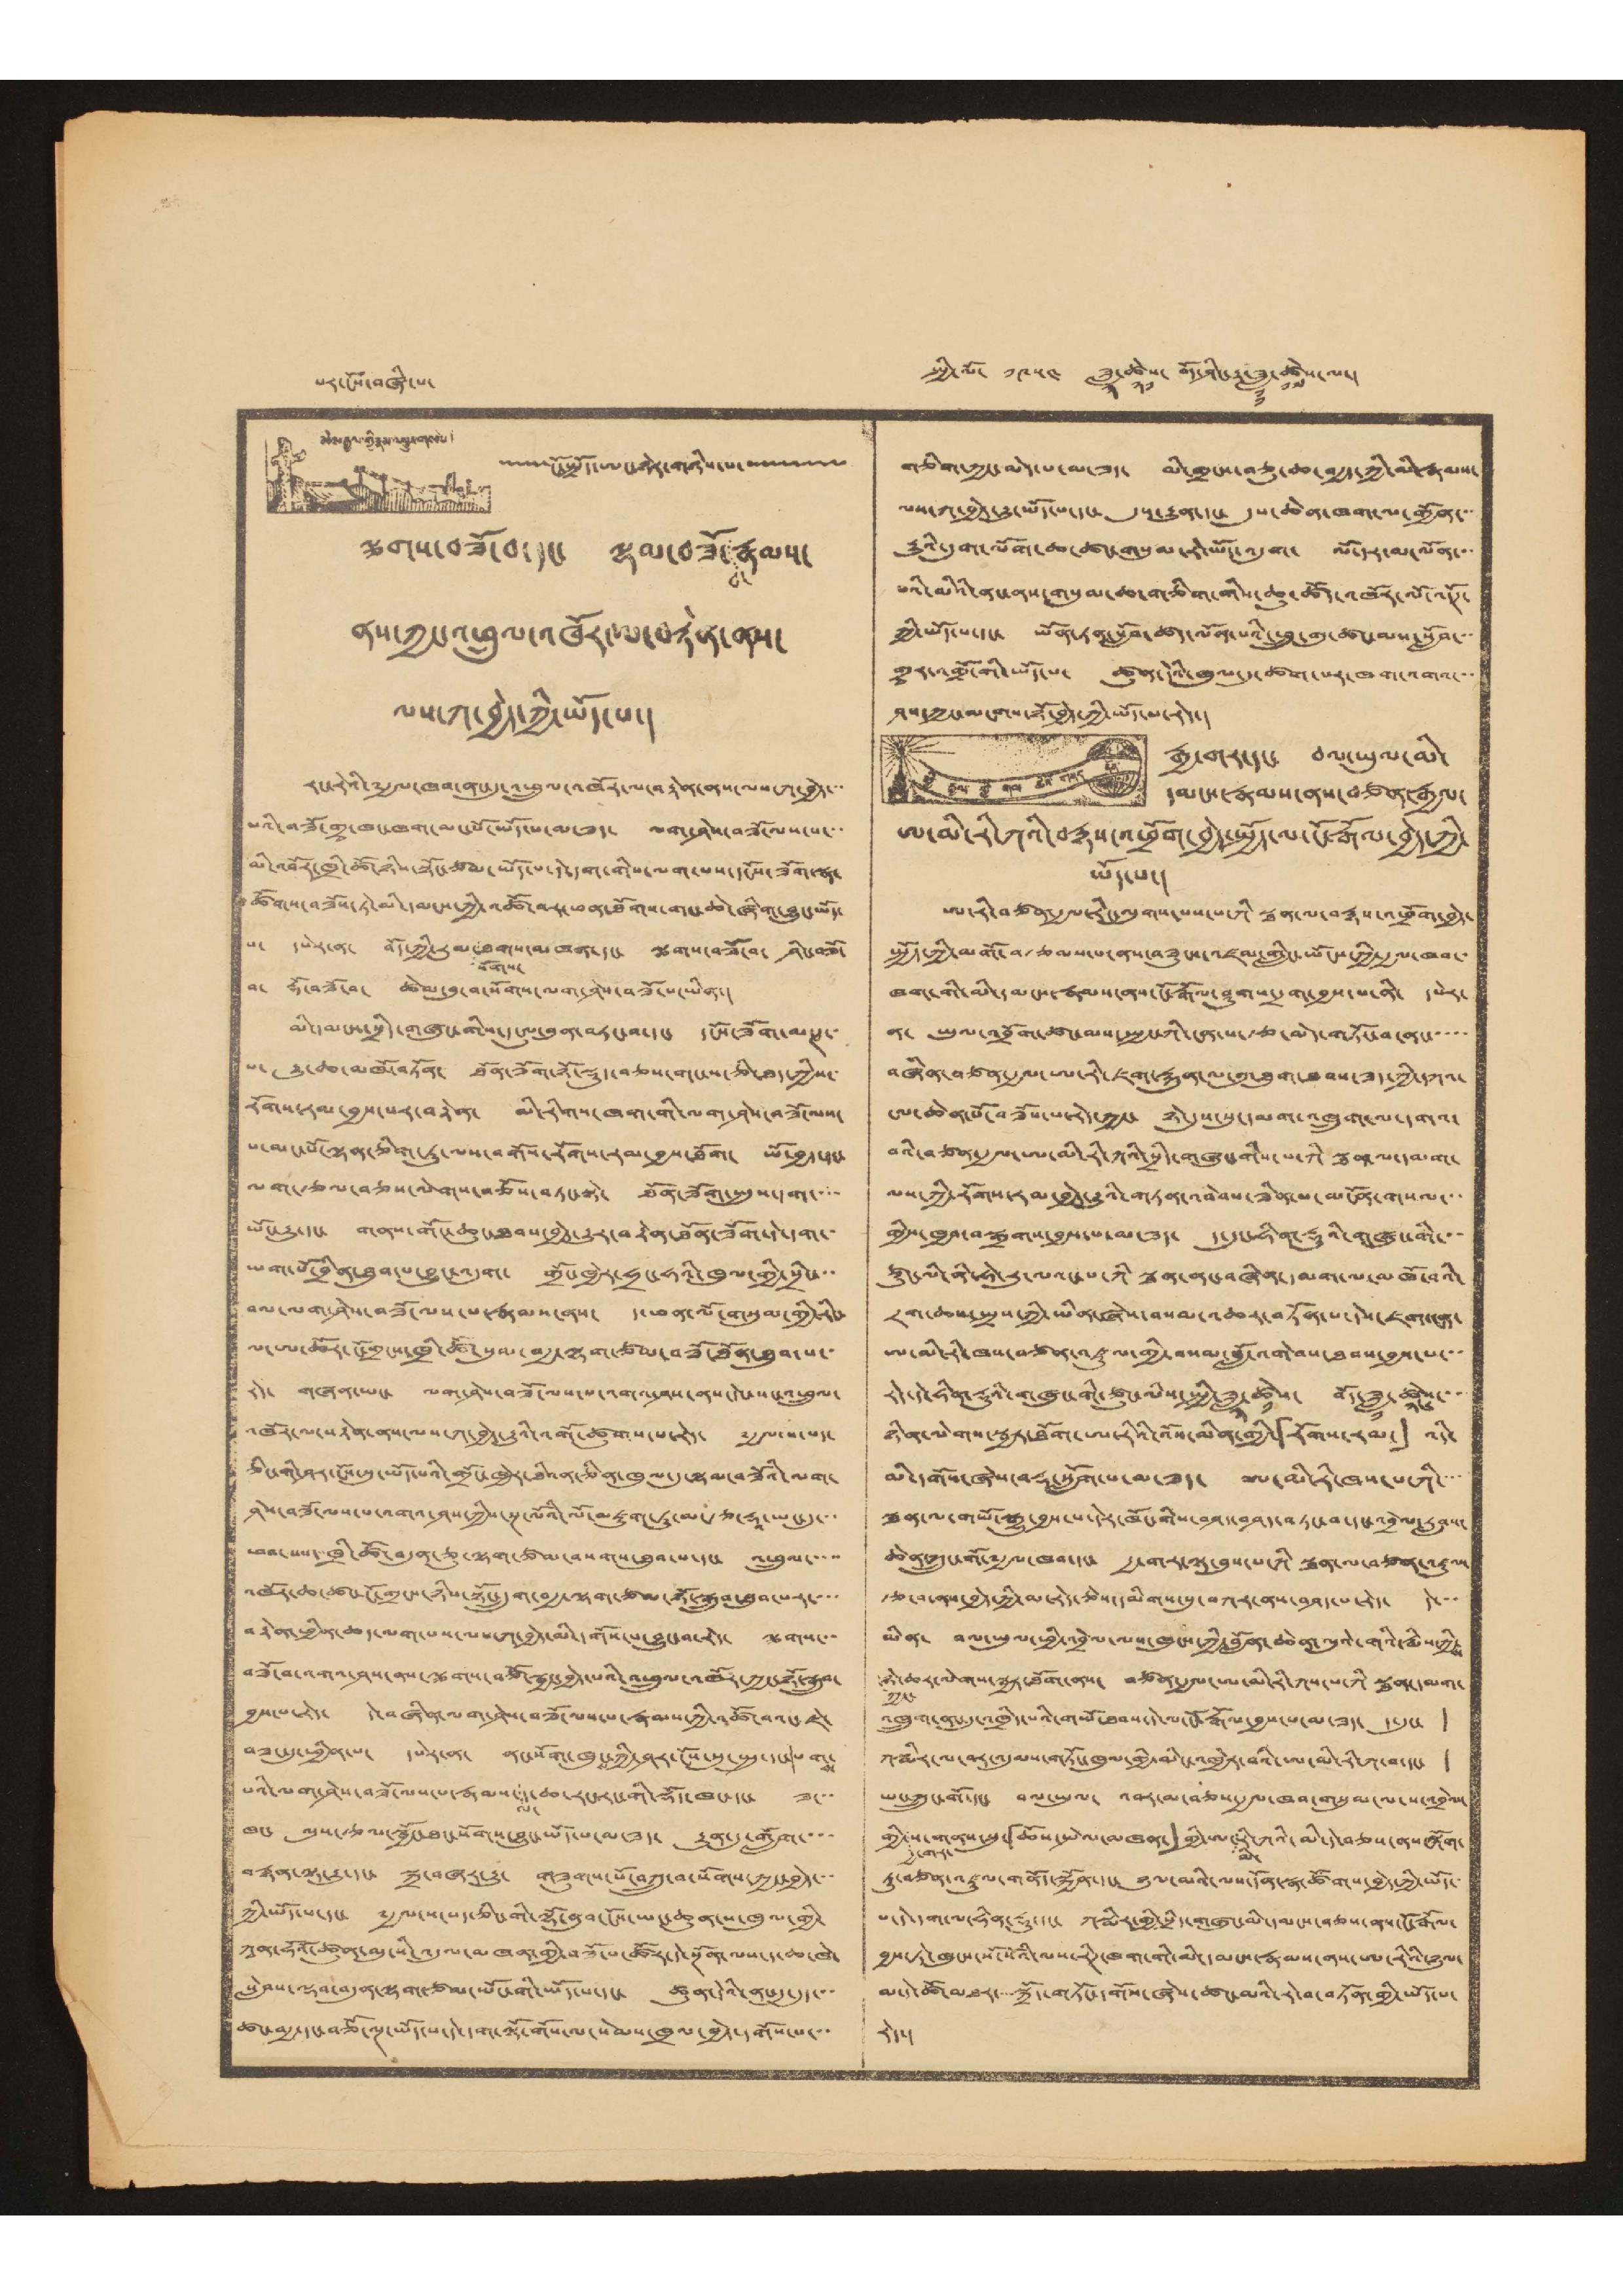པར་ངོས་བཞི་པ་ སྤྱི་ལོ་ ༡༩༥༤ ཟླ་
༣
ཚེས་
༢༡
བོད་ཤིང་རྟ་ཟླ་
༡༡
ཚེས་
༡༧
ལ་།
མེས་རྒྱལ་གྱི་རྣམ་འགྱུར་གསལ་།
ངོ་སྤྲོད་ཨང་ཉེར་གཉིས་པ་
ལྕགས་བཟོ་བ་དང་ ལྷམ་བཟོ་
བ་
རྣམས་
ནས་ཀྱང་འཕྲུལ་འཁོར་ལ་བརྟེན་ནས་
ལས་ཀ་བྱེད་ཀྱི་ཡོད་པ་།
རང་རེའི་༸རྒྱལ་ཁབ་ནང་དུ་འཕྲུལ་འཁོར་ལ་བརྟེན་ནས་ལས་ཀ་བྱེད་་་
པའི་བཟོ་གྲྭ་ཁང་ཁག་མང་པོ་ཡོད་པ་མ་ཟད་ ལག་ཤེས་བཟོ་ལས་པ་་་
མི་འབོར་ཁྲི་ཚོ་ཉིས་སྟོང་ཙམ་ཡོད་པ་དེ་དག་གིས་ལག་པས་དངོས་ཟོག་སྣ་
ཚོགས་བཟོས་ཏེ་མི་དམངས་ཀྱི་འཚོ་བར་ཕན་ཐོགས་གང་ཆེ་ཞིག་བྱུང་ཡོད་
པ་ དཔེར་ན་ བོད་ཀྱི་རུམ་
སོགས་
ཐགས་མཁན་དང་ ལྕགས་བཟོ་བ་ ཤིང་བཟོ་
བ་ རྡོ་བཟོ་བ་ ཚེམ་བུ་བ་སོགས་ལག་ཤེས་བཟོ་པ་ཡིན་།
མི་དམངས་སྲིད་གཞུང་གིས་དངུལ་བུན་བཏང་བ་དང་ དངོས་ཟོག་མ་ཊ་
པ་ རྒྱུ་ཆ་མཁོ་ཏོག་ ཐོན་ཟོག་ཉོ་སྡུད་བཅས་གང་ས་ཅི་ཐད་ཀྱིས་
རོགས་རམ་བྱས་པར་བརྟེན་ མཱི་རིགས་ཁག་གི་ལག་ཤེས་བཟོ་ལས་
པ་མང་པོ་ལྷན་ཅིག་ཏུ་ལས་བགོས་རོགས་རམ་བྱས་ཐོག་ ཡོ་བྱད་དང་
ལག་རྩལ་བཅས་ལེགས་བཅོས་བཏང་སྟེ་ ཐོན་ཟོག་སྤུས་དག་་་་
ཡོང་རྒྱུ་དང་ གནས་གོང་ཆུང་ཐབས་བྱེད་རྒྱུར་བརྟེན་ཐོན་ཟོག་དེ་དག་་
ཡག་པོ་བྲིན་ཐུབ་པ་བྱུང་འདུག་ གྲོང་ཁྱེར་ཧྲང་ཧའི་ཁུལ་གྱི་སྲིང་་་
བལ་ལག་ཤེས་བཟོ་ལས་པ་རྣམས་ནས་ ད་ཕན་ལོ་གསུམ་གྱི་རིང་
ལ་ཨ་ཆོར་ངོ་གྲངས་ཁྲི་ཚོ་སུམ་བརྒྱ་ལྷག་ཙམ་བཟོ་ཐོན་ཐུབ་པ་་
རེད་ གཞན་ཡང་ ལག་ཤེས་བཟོ་ལས་པ་འགའ་ཤས་ནས་དེང་སང་འཕྲུལ་
འཁོར་ལ་བརྟེན་ནས་ལས་ཀ་བྱེད་རྒྱུའི་འགོ་ཚུགས་པ་རེད་ ༸རྒྱལ་ས་པད་
ཅིང་གི་ཤར་ངོས་སུ་ཡོད་པའི་གྲོང་ཁྱེར་ཐའིན་ཅིན་ཁུལ་དུ་ལྷམ་བཟོའི་ལག་
ཤེས་བཟོ་ལས་པ་འགའ་ཤས་ཀྱིས་སྔ་ལོའི་ལོ་མཇུག་ཏུ་མ་རྩ་རྡཱ་ཡང་དུ་་་
ཕབ་པས་ཁྲི་ཚོ་བདུན་ཅུ་ལྷག་ཙམ་བསགས་ཐུབ་པ་དང་ འཕྲུལ་་་་་
འཁོར་ཆ་ཚང་ངོ་གྲངས་ཉིས་སྟོང་དྲུག་བརྒྱ་ལྷག་ཙམ་ཉོ་སྒྲུབ་ཐུབ་པར་་་་
བརྟེན་ཕྱིན་ཆད་ལག་པས་ལས་ཀ་བྱེད་མི་དགོས་པ་བྱུང་བ་རེད་ ལྕགས་་་
བཟོ་བ་འགའ་ཤས་ནས་ལྕགས་བཙོ་སྦྱང་བྱེད་པའི་འཕྲུལ་འཁོར་ཀྱང་ཉོ་སྒྲུབ་
བྱས་པ་རེད་ དེ་བཞིན་ལག་ཤེས་བཟོ་ལས་པ་རྣམས་ཀྱི་འཚོ་བའང་ཇེ་
བཟང་དུ་ཕྱིན་པ་ དཔེར་ན་ ནང་སོག་ཁུངས་ཀྱི་ཤར་ངོས་སུ་སྤུ་དང་པགས་
པའི་ལག་ཤེས་བཟོ་ལས་པ་རྣམས་
ལ་
ཆ་རང་རང་གི་སྡོད་ཁང་དང་ ཟ་་་
ཁང་ ལུས་རྩལ་སྦྱོང་ཐང་སོགས་བྱུང་ཡོད་པ་མ་ཟད་ རྒྱུན་དུ་གློག་་་་
བརྙན་ལྟ་རྒྱུ་དང་ སྐྲ་བཞར་རྒྱུ་ གཟུགས་པོ་བཀྲུ་བ་སོགས་ཀྱང་བྱེད་་་
ཀྱི་ཡོད་པ་དང་ ༸རྒྱལ་ས་པད་ཅིང་གི་ལྷོ་ནུབ་ངོས་ཡང་ཆུན་ས་ཁུལ་གྱི་
ཀཱན་ཧོའོ་ཚུན་མུ་སི་འདུལ་མཁན་གྱི་བཟོ་པ་ཚོར་དེ་སྔོན་ལས་ད་ཆ་ཁེ་
སླེབས་ལྡབ་བདུན་ལྷག་ཙམ་ཡོང་གི་ཡོད་པ་དང་ ཚུན་དེའི་ནང་དུ་དུད་་་
ཚང་བརྒྱ་དང་བཅོ་ལྔ་ཡོད་པ་དེ་དག་ལྟོ་གོས་ལ་སེམས་ཁྲལ་བྱེད་དགོས་པ་་་
གཅིག་ཀྱང་མེད་པ་མ་ཟད་ མི་གྲངས་བཅུ་ཆ་བརྒྱད་ཀྱི་མི་རྣམས་
ལས་ཀ་བྱེད་རྒྱུ་ཡོད་པ་དང་ དུས་རྒྱུན་དང་ དུས་ཆེན་ཁག་ལ་གྱོན་་་
རྒྱུའི་དུག་ལོག་ཆ་ཚང་གསུམ་རེ་ཡོད་འདུག་ ལོ་དར་མ་ལོན་་་
པའི་མིའི་ནང་ནས་གསུམ་ཆ་གཅིག་གིས་ཆུ་ཚོད་འཁོར་ལོ་འདོཊ་
ཀྱི་ཡོད་པ་དང་ ཡོན་ཏན་སློབ་ཚད་ལོན་པའི་ཕྲུ་གུ་ཚང་མས་སློབ་་་
གྲྭར་འགྲོ་གོ་ཡོད་པ་ ཚུན་དེའི་ཁུལ་དུ་ཚག་པར་ཁག་འགའ་་་
ཤས་ཀྱང་མངགས་ཉོ་བྱེད་ཀྱི་ཡོད་པ་རེད་།
ཕྱི་རྒྱལ་གྱི་གལ་ཆེའི་གནད་དོན་
རྒྱ་གར་དང་ བལ་ཡུལ་མི་
དམངས་རྣམས་ནས་བཙན་རྒྱལ་
ཨ་མི་རི་ཀའི་བརྙས་འཕྲོག་བྱེད་སྤྱོད་ལ་ངོ་རྒོལ་བྱེད་ཀྱི་
ཡོད་པ་།
ཨ་རི་བཙན་རྒྱལ་རིང་ལུགས་པས་པ་ཀི་སྠན་ལ་བརྙས་འཕྲོག་བྱེད་
སྤྱོད་ཀྱི་མགོ་བརྩམས་པ་ནས་བཟུངས་འཛམ་གླིང་ཡོངས་ཀྱི་རྒྱལ་ཁབ་
ཁག་གི་མི་དམངས་རྣམས་ནས་ངོ་རྒོལ་ཤུགས་དྲག་བྱས་པ་ནི་ དཔེར་
ན་ ཡུལ་འབྲོག་ཚང་མས་སྤྱང་ཀི་ངན་པ་རྩ་མེད་གཏོང་བ་ནང་་་་་
བཞིན་བཙན་རྒྱལ་ཨ་རི་ཇག་རྐུན་ལ་གུ་ཐུག་ཐབས་ཟད་ཀྱི་དཀའ་
ངལ་ཆེན་པོ་བཟོས་པ་རེད་ཀྱང་ ཉེ་དུས་སུ་དམག་འཁྲུག་ལ་དགའ་
བའི་བཙན་རྒྱལ་ཨ་མི་རི་ཀའི་སྲིད་གཞུང་གིས་པ་ཀི་སྠན་ལ་དམག་
ལས་ཀྱི་རོགས་རམ་བྱེད་རྒྱུའི་གཏན་འབེབས་ཟིན་པ་མངོན་གསལ་་་
གྱིས་ཁྱབ་བསྒྲགས་བྱས་པ་མ་ཟད་ ད་དུང་ཧིན་རྡུའི་གཞུང་གི་་་
ཙུང་ལི་ནི་ཧེ་རུ་ལའང་པ་་ཀི་སྠན་ནང་བཞིན་དམག་ལ་མཁོ་བའི་
དྲག་ཆས་སྤྲས་ཀྱི་ཡིན་ཞེས་བསམ་འཆར་བཏོན་པ་དེས་ཇག་ངན་
ཨ་མི་རི་ཁས་བཙན་འཛུལ་གྱི་བསམ་བློ་འགེབས་ཐབས་བྱས་པ་་་
རེད་དེ་ཧིན་རྡུའི་གཞུང་གི་ཙུང་ལིས་སྤྱི་ཟླ་
༣
ཚེས་
༡
བོད་ཟླ་
༡
ཚེས་
༢༦
་་
ཉིན་ལེགས་སྦྱར་ཐོག་ཨ་རིའི་འོས་མིན་གྱི་「རོགས་རམ་」 འདི་
མི་དགོས་ཞེས་བརྡ་སློག་པ་མ་ཟད་ ཨ་མི་རི་ཁས་པ་ཀི་་་་
སྠན་ལ་གཡོ་སྒྱུ་བྱས་པ་དེར་ཁོང་གིས་བཤད་བཤད་བཏང་བ་དང་འབྲེལ་རླབས་
ཆེན་ཀྲུང་གོ་༸རྒྱལ་ཁབ་དང་ རྒྱ་གར་ལྟ་བུས་པ་ཀི་སྠན་ལ་བཙན་འཛུལ་
རྩ་བ་ནས་བྱེད་ཀྱི་མ་རེད་ཅེས་དམིགས་སུ་བཀར་ནས་བཤད་པ་རེད་ དེ་་་
ཡིན་ བལ་ཡུལ་ཕྱི་འབྲེལ་ལས་ཁུངས་ཀྱི་བློན་ཆེན་ལུའེ་གའི་རྨིས་ཀྱིས་
ཀྱང་
ཉེ་ཆར་ལེགས་སྦྱར་ཐོག་ནས་ བཙན་རྒྱལ་ཨ་མི་རི་ཀས་པ་ཀི་སྠན་དམག་
འཁྲུག་ནང་དུ་འཁྲིད་པའི་གཡོ་ཐབས་དེ་ལ་ངོ་རྒོལ་བྱས་པ་མ་ཟད་ ད་དུང་ །
ཀ་སྨིར་ལ་བར་འདུམས་གཏོང་ཁུལ་གྱི་མིང་འཁྱེར་བའི་ཨ་མི་རི་ཀ་བ་དང་ །
ཡ་ཀྲུང་གོ་དང་ བལ་ཡུལ་ འབར་མ་བཅས་རྒྱལ་ཁབ་གསུམ་ལ་ས་འབྲེལ་
གྱི་
རྒྱ་གར་
ས་གནས་སུ་「ཆོས་སྤེལ་མཁན་」གྱི་ཨ་
མི་
རི་ཀའི་མི་དེ་བཅས་ནས་ལྐོག་་
ཏུ་བཙན་འཛུལ་གནོད་སྐྱོན་དང་ ཉུལ་མའི་ལས་དོན་སྣ་ཚོགས་བྱེད་ཀྱི་ཡོད་་
པ་དེ་དག་ལ་ཧིན་རྡུ་དང་ ཀསྨིར་གྱི་སྲིད་གཞུང་མི་དམངས་བཅས་ནས་ངོ་རྒོལ་
བྱས་ཏེ་ཁུངས་སོ་སོའི་ལས་རིཊ་ཁག་གི་མི་དམངས་རྣམས་ནས་ཨ་རིའི་ཉུལ་
མ་དེ་ཚོ་མཐར་་་་སྐྲོད་གཏོང་དགོས་ཞེས་ཚང་མའི་རེ་བ་བཏོན་གྱི་ཡོད་པ་
རེད་།
